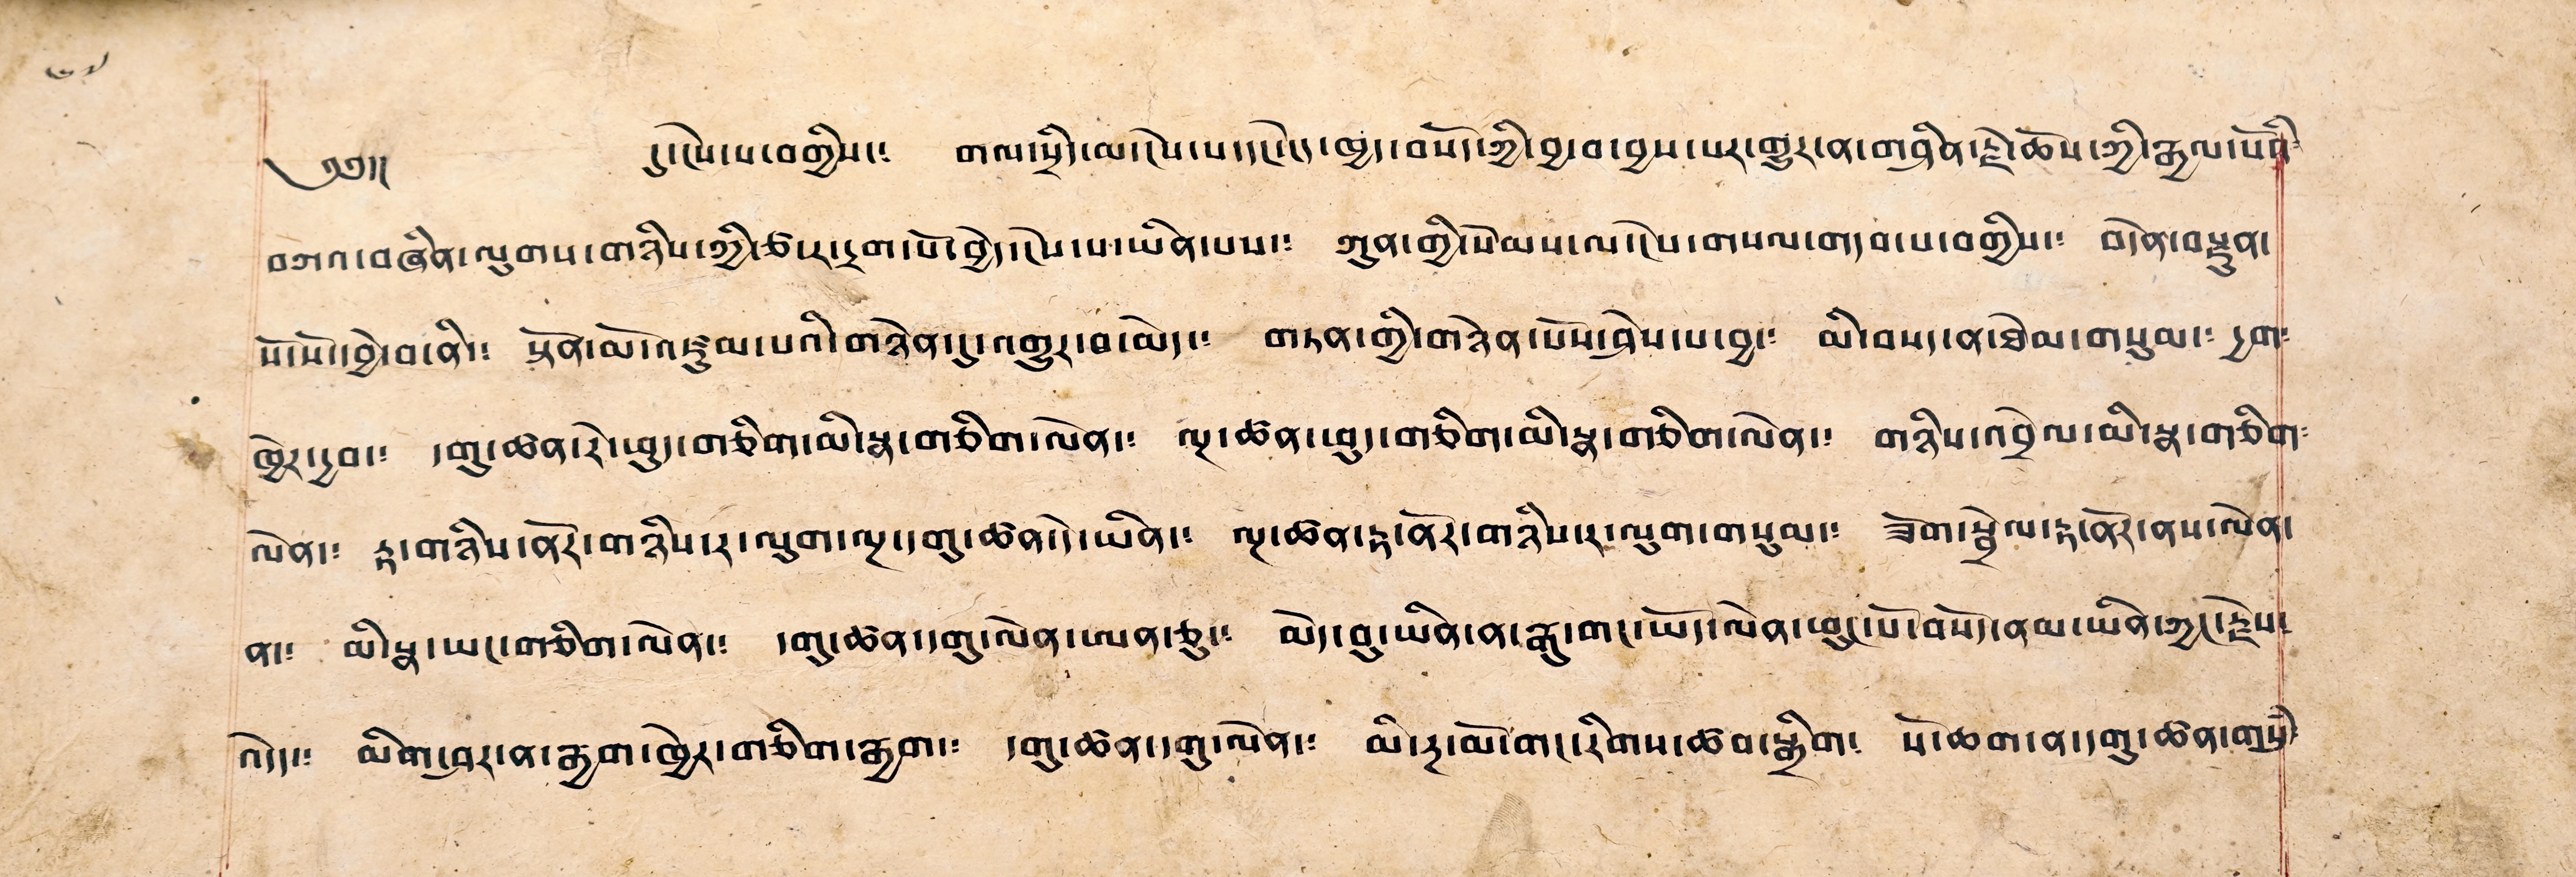༄༅།། དུ་ངེས་པ་བགྱིས་༴ གལ་སྲིད་མ་ངེས་པ་དང་ངེད་ཁྱད་བསོད་ཀྱི་བྱ་བ་བྱས་པར་གྱུར་ན་གཤིན་རྗེ་ཆོས་ཀྱི་རྒྱལ་པོའི་
བཀའ་བཞིན་ལུགས་གཉིས་ཀྱི་ཙར་དྲག་པོ་བྱེད་ངེས་པ་ཡིན་པས་༴ ཀུན་གྱི་སེམས་ལ་ངེས་གསལ་གདབ་པ་བགྱིས་༴ བདེན་བརྫུན་
སོ་སོ་བྱེ་བ་ནི་༴ སྟོན་མོ་འཛུམ་པའི་གཉེན་དུ་འགྱུར་བ་མེད། གཏན་གྱི་གཉེན་པོས་ཤེས་པ་བྱ་༴ མི་བསད་ན་ཐེམ་གསུམ་༴ དྱག༴
ཁྱེར་དྱབ་༴ དགུ་ཚན་རེ་ཕུད་གཅིག་མི་སྣ་གཅིག་ལེན་༴ ལྔ་ཚན་ཕུད་གཅིག་མི་སྣ་གཅིག་ལེན་༴ གཉིས་འབྲེལ་མི་སྣ་གཅིག༴
ལེན་༴ རྟ་གཉིས་ནོར་གཉིས་ར་ལུག་ལྔ་དགུ་ཚན་དེ་ཡིན་༴ ལྔ་ཚན་རྟ་ནོར་གཉིས་ར་ལུག་གསུམ་༴ ཟོག་སྦྲེལ་རྟ་ནོར་ནས་ལེན་
ན་༴ མི་སྣ་ཡང་གཅིག་ལེན་༴ དགུ་ཚན་དགུ་ལེན་ཨན་ཅུ་༴ མེད་བུ་ཡིན་ན་རྒུ་གང་ཡོད་ལེན་ཕུང་པོ་བསོད་ནམ་ཡིན་ཀྱང་རྗེས༴
འདེད་༴ མིག་ཤར་བ་རྒྱག་ཁྱེར་གཅིག་རྒྱག་༴ དགུ་ཚན་དགུ་ལེན་༴ མི་རྔ་མོ་གང་རིགས་ཆབ་སྒྲིག། སོ་ཆག་ན་དགུ་ཚན་གསུཾ་
